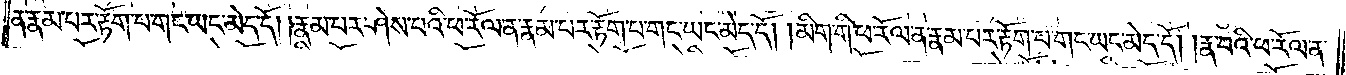ན་རྣམ་པར་རྟོག་པ་གང་ཡང་མེད་དོ། །རྣམ་པར་ཤེས་པའི་ཕ་རོལ་ན་རྣམ་པར་རྟོག་པ་གང་ཡང་མེད་དོ། །མིག་གི་ཕ་རོལ་ན་རྣམ་པར་རྟོག་པ་གང་ཡང་མེད་དོ། །རྣ་བའི་ཕ་རོལ་ན་
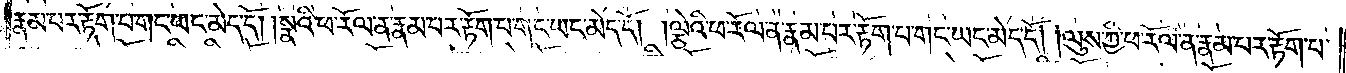རྣམ་པར་རྟོག་པ་གང་ཡང་མེད་དོ། །སྣའི་ཕ་རོལ་ན་རྣམ་པར་རྟོག་པ་གང་ཡང་མེད་དོ། །ལྕེའི་ཕ་རོལ་ན་རྣམ་པར་རྟོག་པ་གང་ཡང་མེད་དོ། །ལུས་ཀྱི་ཕ་རོལ་ན་རྣམ་པར་རྟོག་པ་
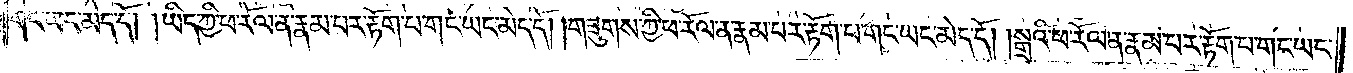གང་ཡང་མེད་དོ། །ཡིད་ཀྱི་ཕ་རོལ་ན་རྣམ་པར་རྟོག་པ་གང་ཡང་མེད་དོ། །གཟུགས་ཀྱི་ཕ་རོལ་ན་རྣམ་པར་རྟོག་པ་གང་ཡང་མེད་དོ། །སྒྲའི་ཕ་རོལ་ན་རྣམ་པར་རྟོག་པ་གང་ཡང་
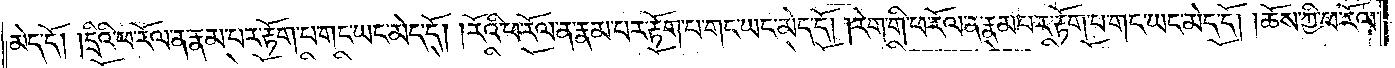མེད་དོ། །དྲིའི་ཕ་རོལ་ན་རྣམ་པར་རྟོག་པ་གང་ཡང་མེད་དོ། །རོའི་ཕ་རོལ་ན་རྣམ་པར་རྟོག་པ་གང་ཡང་མེད་དོ། །རེག་གི་ཕ་རོལ་ན་རྣམ་པར་རྟོག་པ་གང་ཡང་མེད་དོ། །ཆོས་ཀྱི་ཕ་རོལ་
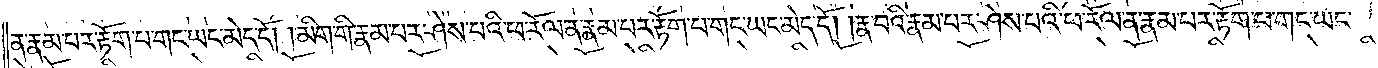ན་རྣམ་པར་རྟོག་པ་གང་ཡང་མེད་དོ། །མིག་གི་རྣམ་པར་ཤེས་པའི་ཕ་རོལ་ན་རྣམ་པར་རྟོག་པ་གང་ཡང་མེད་དོ། །རྣ་བའི་རྣམ་པར་ཤེས་པའི་ཕ་རོལ་ན་རྣམ་པར་རྟོག་པ་གང་ཡང་
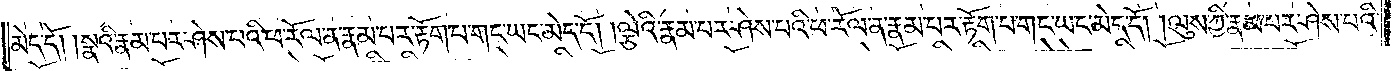མེད་དོ། །སྣའི་རྣམ་པར་ཤེས་པའི་ཕ་རོལ་ན་རྣམ་པར་རྟོག་པ་གང་ཡང་མེད་དོ། །ལྕེའི་རྣམ་པར་ཤེས་པའི་ཕ་རོལ་ན་རྣམ་པར་རྟོག་པ་གང་ཡང་མེད་དོ། །ལུས་ཀྱི་རྣམ་པར་ཤེས་པའི་
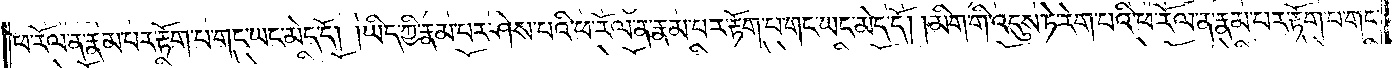ཕ་རོལ་ན་རྣམ་པར་རྟོག་པ་གང་ཡང་མེད་དོ། །ཡིད་ཀྱི་རྣམ་པར་ཤེས་པའི་ཕ་རོལ་ན་རྣམ་པར་རྟོག་པ་གང་ཡང་མེད་དོ། །མིག་གི་འདུས་ཏེ་རེག་པའི་ཕ་རོལ་ན་རྣམ་པར་རྟོག་པ་གང་
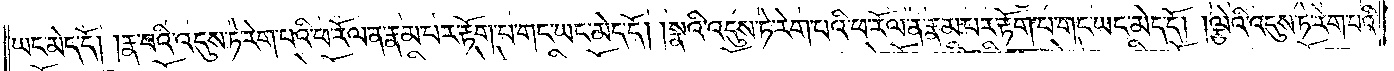ཡང་མེད་དོ། །རྣ་བའི་འདུས་ཏེ་རེག་པའི་ཕ་རོལ་ན་རྣམ་པར་རྟོག་པ་གང་ཡང་མེད་དོ། །སྣའི་འདུས་ཏེ་རེག་པའི་ཕ་རོལ་ན་རྣམ་པར་རྟོག་པ་གང་ཡང་མེད་དོ། །ལྕེའི་འདུས་ཏེ་རེག་པའི་
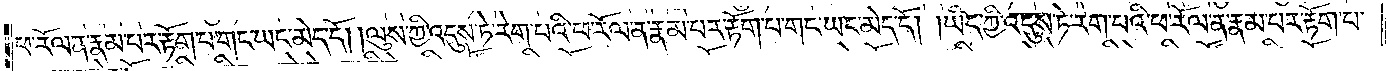ཕ་རོལ་ན་རྣམ་པར་རྟོག་པ་གང་ཡང་མེད་དོ། །ལུས་ཀྱི་འདུས་ཏེ་རེག་པའི་ཕ་རོལ་ན་རྣམ་པར་རྟོག་པ་གང་ཡང་མེད་དོ། །ཡིད་ཀྱི་འདུས་ཏེ་རེག་པའི་ཕ་རོལ་ན་རྣམ་པར་རྟོག་པ་
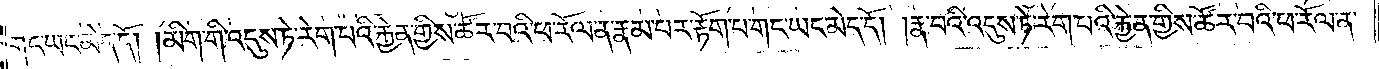གང་ཡང་མེད་དོ། །མིག་གི་འདུས་ཏེ་རེག་པའི་རྐྱེན་གྱིས་ཚོར་བའི་ཕ་རོལ་ན་རྣམ་པར་རྟོག་པ་གང་ཡང་མེད་དོ། །རྣ་བའི་འདུས་ཏེ་རེག་པའི་རྐྱེན་གྱིས་ཚོར་བའི་ཕ་རོལ་ན་
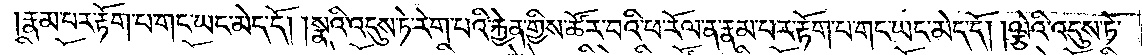རྣམ་པར་རྟོག་པ་གང་ཡང་མེད་དོ། །སྣའི་འདུས་ཏེ་རེག་པའི་རྐྱེན་གྱིས་ཚོར་བའི་ཕ་རོལ་ན་རྣམ་པར་རྟོག་པ་གང་ཡང་མེད་དོ། །ལྕེའི་འདུས་ཏེ་
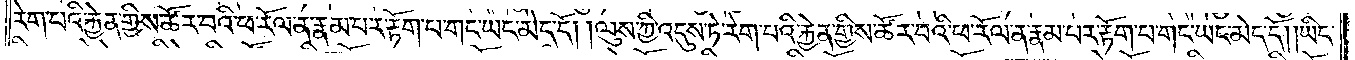རེག་པའི་རྐྱེན་གྱིས་ཚོར་བའི་ཕ་རོལ་ན་རྣམ་པར་རྟོག་པ་གང་ཡང་མེད་དོ། །ལུས་ཀྱི་འདུས་ཏེ་རེག་པའི་རྐྱེན་གྱིས་ཚོར་བའི་ཕ་རོལ་ན་རྣམ་པར་རྟོག་པ་གང་ཡང་མེད་དོ། །ཡིད་
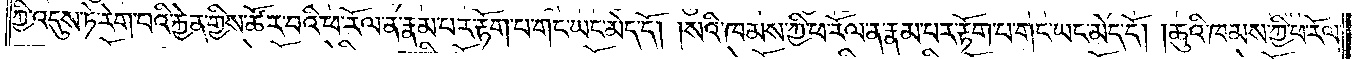ཀྱི་འདུས་ཏེ་རེག་པའི་རྐྱེན་གྱིས་ཚོར་བའི་ཕ་རོལ་ན་རྣམ་པར་རྟོག་པ་གང་ཡང་མེད་དོ། །སའི་ཁམས་ཀྱི་ཕ་རོལ་ན་རྣམ་པར་རྟོག་པ་གང་ཡང་མེད་དོ། །ཆུའི་ཁམས་ཀྱི་ཕ་རོལ་
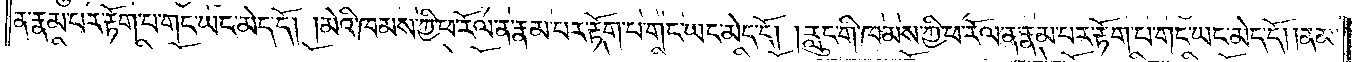ན་རྣམ་པར་རྟོག་པ་གང་ཡང་མེད་དོ། །མེའི་ཁམས་ཀྱི་ཕ་རོལ་ན་རྣམ་པར་རྟོག་པ་གང་ཡང་མེད་དོ། །རླུང་གི་ཁམས་ཀྱི་ཕ་རོལ་ན་རྣམ་པར་རྟོག་པ་གང་ཡང་མེད་དོ། །ནམ་
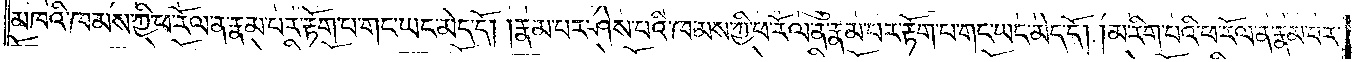མཁའི་ཁམས་ཀྱི་ཕ་རོལ་ན་རྣམ་པར་རྟོག་པ་གང་ཡང་མེད་དོ། །རྣམ་པར་ཤེས་པའི་ཁམས་ཀྱི་ཕ་རོལ་ན་རྣམ་པར་རྟོག་པ་གང་ཡང་མེད་དོ། །མ་རིག་པའི་ཕ་རོལ་ན་རྣམ་པར་
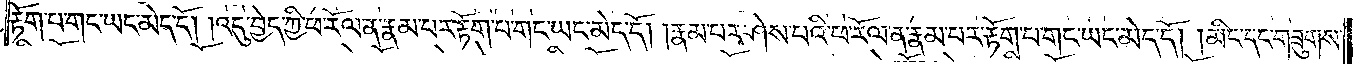རྟོག་པ་གང་ཡང་མེད་དོ། །འདུ་བྱེད་ཀྱི་ཕ་རོལ་ན་རྣམ་པར་རྟོག་པ་གང་ཡང་མེད་དོ། །རྣམ་པར་ཤེས་པའི་ཕ་རོལ་ན་རྣམ་པར་རྟོག་པ་གང་ཡང་མེད་དོ། །མིང་དང་གཟུགས་
